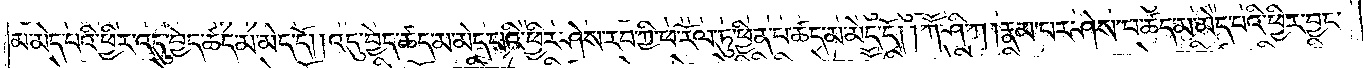མ་མེད་པའི་ཕྱིར་འདུ་བྱེད་ཚད་མེད་དོ། །འདུ་བྱེད་ཚད་མེད་པའི་ཕྱིར་ཤེས་རབ་ཀྱི་ཕ་རོལ་ཏུ་ཕྱིན་པ་ཚད་མེད་དོ། །ཀཽ་ཤི་ཀ། རྣམ་པར་ཤེས་པ་ཚད་མེད་པའི་ཕྱིར་བྱང་
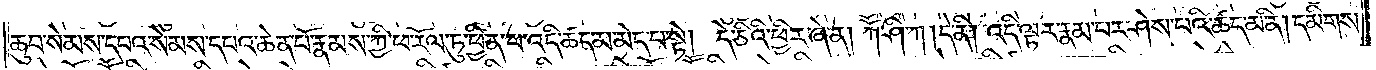ཆུབ་སེམས་དཔའ་སེམས་དཔའ་ཆེན་པོ་རྣམས་ཀྱི་ཕ་རོལ་ཏུ་ཕྱིན་པ་འདི་ཚད་མེད་པ་སྟེ། དེ་ཅིའི་ཕྱིར་ཞེ་ན། ཀཽ་ཤི་ཀ། དེ་ནི། འདི་ལྟར་རྣམ་པར་ཤེས་པའི་ཚད་མ་ནི། དམིགས་
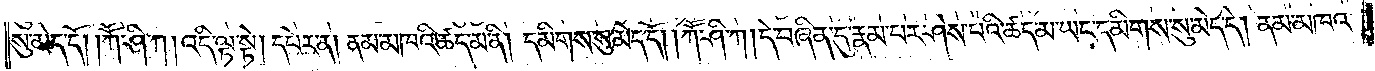སུ་མེད་དོ། །ཀཽ་ཤི་ཀ། འདི་ལྟ་སྟེ། དཔེར་ན། ནམ་མཁའི་ཚད་མ་ནི། དམིགས་སུ་མེད་དོ། །ཀཽ་ཤི་ཀ། དེ་བཞིན་དུ་རྣམ་པར་ཤེས་པའི་ཚད་ཀྱང་དམིགས་སུ་མེད་དེ། ནམ་མཁའ་
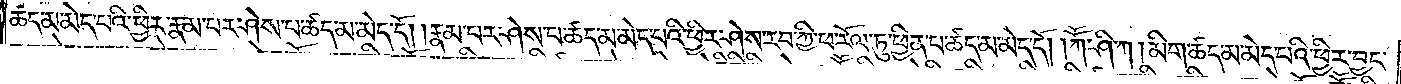ཚད་མེད་པའི་ཕྱིར་རྣམ་པར་ཤེས་པ་ཚད་མེད་དོ། །རྣམ་པར་ཤེས་པ་ཚད་མེད་པའི་ཕྱིར་ཤེས་རབ་ཀྱི་ཕ་རོལ་ཏུ་ཕྱིན་པ་ཚད་མེད་དོ། །ཀཽ་ཤི་ཀ། མིག་ཚད་མེད་པའི་ཕྱིར་བྱང་
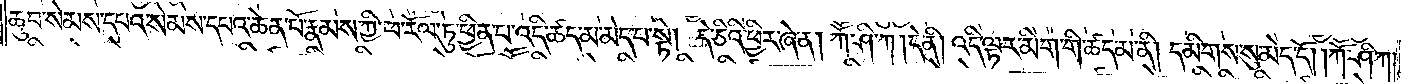ཆུབ་སེམས་དཔའ་སེམས་དཔའ་ཆེན་པོ་རྣམས་ཀྱི་ཕ་རོལ་ཏུ་ཕྱིན་པ་འདི་ཚད་མེད་པ་སྟེ། དེ་ཅིའི་ཕྱིར་ཞེ་ན། ཀཽ་ཤི་ཀ། དེ་ནི། འདི་ལྟར་མིག་གི་ཚད་མ་ནི། དམིགས་སུ་མེད་དོ། །ཀཽ་ཤི་ཀ།
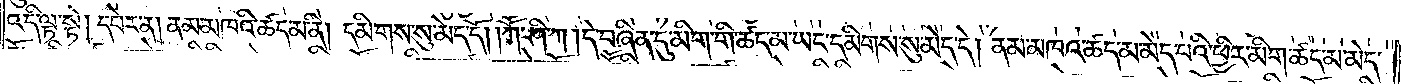འདི་ལྟ་སྟེ། དཔེར་ན། ནམ་མཁའི་ཚད་ནི་དམིགས་སུ་མེད་དོ། །ཀཽ་ཤི་ཀ། དེ་བཞིན་དུ་མིག་གི་ཚད་མ་ཡང་དམིགས་སུ་མེད་དེ། །ནམ་མཁའ་ཚད་མེད་པའི་ཕྱིར་མིག་ཚད་མ་མེད་
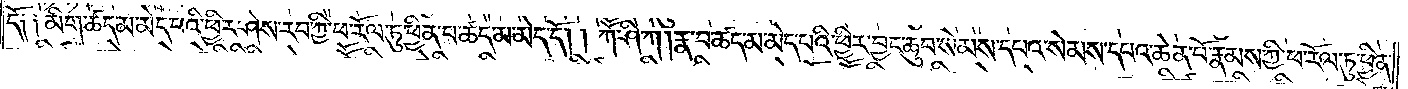དོ༑ ༑མིག་ཚད་མེད་པའི་ཕྱིར་ཤེས་རབ་ཀྱི་ཕ་རོལ་ཏུ་ཕྱིན་པ་ཚད་མ་མེད་དོ། །ཀཽ་ཤི་ཀ། རྣ་བ་ཚད་མེད་པའི་ཕྱིར་བྱང་ཆུབ་སེམས་དཔའ་སེམས་དཔའ་ཆེན་པོ་རྣམས་ཀྱི་ཕ་རོལ་ཏུ་ཕྱིན་
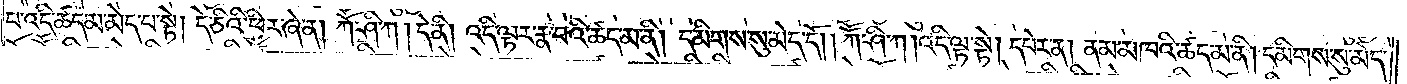པ་འདི་ཚད་མེད་པ་སྟེ། དེ་ཅིའི་ཕྱིར་ཞེ་ན། ཀཽ་ཤི་ཀ། དེ་ནི། འདི་ལྟར་རྣ་བའི་ཚད་མ་ནི། དམིགས་སུ་མེད་དོ། །ཀཽ་ཤི་ཀ། འདི་ལྟ་སྟེ། དཔེར་ན། ནམ་མཁའི་ཚད་མ་ནི། དམིགས་སུ་མེད་
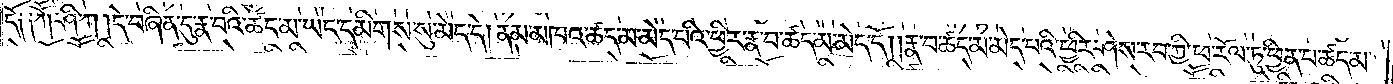དོ༑ ༑ཀཽ་ཤི་ཀ། དེ་བཞིན་དུ་རྣ་བའི་ཚད་མ་ཡང་དམིགས་སུ་མེད་དེ། ནམ་མཁའ་ཚད་མ་མེད་པའི་ཕྱིར་རྣ་བ་ཚད་མ་མེད་དོ། །རྣ་བ་ཚད་མ་མེད་པའི་ཕྱིར་ཤེས་རབ་ཀྱི་ཕ་རོལ་ཏུ་ཕྱིན་པ་ཚད་མ་
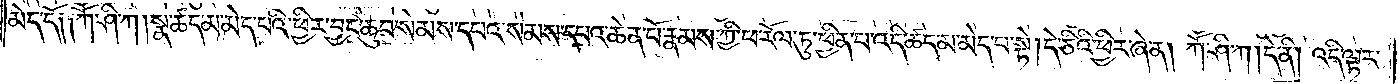མེད་དོ། །ཀཽ་ཤི་ཀ། སྣ་ཚད་མེད་པའི་ཕྱིར་བྱང་ཆུབ་སེམས་དཔའ་སེམས་དཔའ་ཆེན་པོ་རྣམས་ཀྱི་ཕ་རོལ་ཏུ་ཕྱིན་པ་འདི་ཚད་མེད་པ་སྟེ། དེ་ཅིའི་ཕྱིར་ཞེ་ན། ཀཽ་ཤི་ཀ། དེ་ནི། འདི་ལྟར་
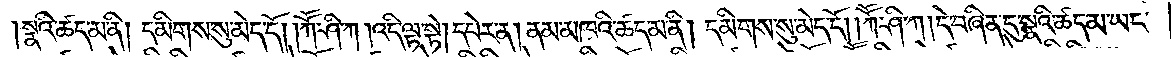སྣའི་ཚད་མ་ནི། དམིགས་སུ་མེད་དོ། །ཀཽ་ཤི་ཀ། འདི་ལྟ་སྟེ། དཔེར་ན། ནམ་མཁའི་ཚད་མ་ནི། དམིགས་སུ་མེད་དོ། །ཀཽ་ཤི་ཀ། དེ་བཞིན་དུ་སྣའི་ཚད་མ་ཡང་
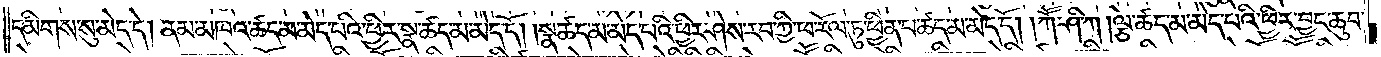དམིགས་སུ་མེད་དེ། ནམ་མཁའ་ཚད་མ་མེད་པའི་ཕྱིར་སྣ་ཚད་མ་མེད་དོ། །སྣ་ཚད་མ་མེད་པའི་ཕྱིར་ཤེས་རབ་ཀྱི་ཕ་རོལ་ཏུ་ཕྱིན་པ་ཚད་མ་མེད་དོ། །ཀཽ་ཤི་ཀ །ལྕེ་ཚད་མ་མེད་པའི་ཕྱིར་བྱང་ཆུབ་
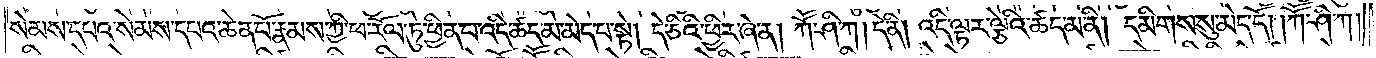སེམས་དཔའ་སེམས་དཔའ་ཆེན་པོ་རྣམས་ཀྱི་ཕ་རོལ་ཏུ་ཕྱིན་པ་འདི་ཚད་མ་མེད་པ་སྟེ། དེ་ཅིའི་ཕྱིར་ཞེ་ན། ཀཽ་ཤི་ཀ། དེ་ནི། འདི་ལྟར་ལྕེའི་ཚད་མ་ནི། དམིགས་སུ་མེད་དོ། །ཀཽ་ཤི་ཀ།
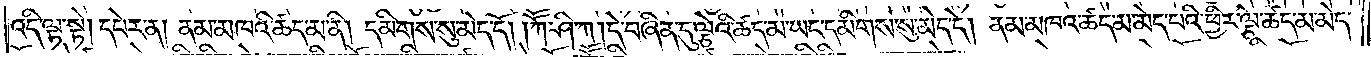འདི་ལྟ་སྟེ། དཔེར་ན། ནམ་མཁའི་ཚད་མ་ནི། དམིགས་སུ་མེད་དོ། །ཀཽ་ཤི་ཀ། དེ་བཞིན་དུ་ལྕེའི་ཚད་མ་ཡང་དམིགས་སུ་མེད་དེ། ནམ་མཁའ་ཚད་མ་མེད་པའི་ཕྱིར་ལྕེ་ཚད་མ་མེད་
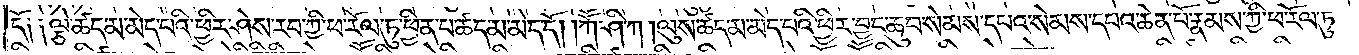དོ༏ ༏ལྕེ་ཚད་མ་མེད་པའི་ཕྱིར་ཤེས་རབ་ཀྱི་ཕ་རོལ་ཏུ་ཕྱིན་པ་ཚད་མ་མེད་དོ། །ཀཽ་ཤི་ཀ །ལུས་ཚད་མ་མེད་པའི་ཕྱིར་བྱང་ཆུབ་སེམས་དཔའ་སེམས་དཔའ་ཆེན་པོ་རྣམས་ཀྱི་ཕ་རོལ་ཏུ་
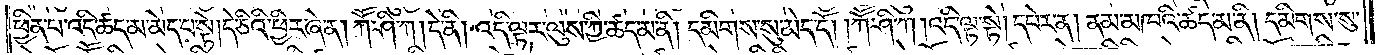ཕྱིན་པ་འདི་ཚད་མ་མེད་པ་སྟེ། དེ་ཅིའི་ཕྱིར་ཞེ་ན། ཀཽ་ཤི་ཀ །དེ་ནི། འདི་ལྟར་ལུས་ཀྱི་ཚད་མ་ནི་དམིགས་སུ་མེད་དོ། །ཀཽ་ཤི་ཀ །འདི་ལྟ་སྟེ། དཔེར་ན། ནམ་མཁའི་ཚད་མ་ནི། དམིགས་སུ་
